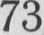73
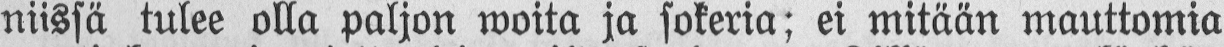niissä tulee olla paljon woita ja sokeria; ei mitään mauttomia
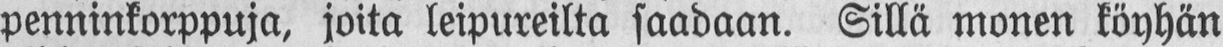penninkorppuja, joita leipureilta saadaan. Sillä monen köyhän
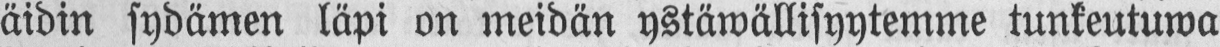äidin sydämen läpi on meidän ystäwällisyytemme tunkeutuwa
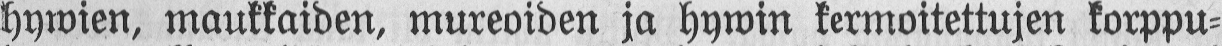hywien, maukkaiden, mureoiden ja hywin kermoitettujen korppu-
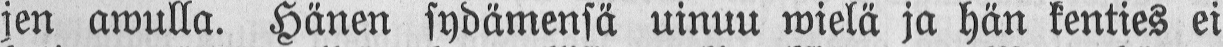jen awulla. Hänen sydämensä uinuu wielä ja hän kenties ei
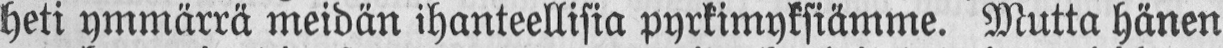heti ymmärrä meidän ihanteellisia pyrkimyksiämme. Mutta hänen
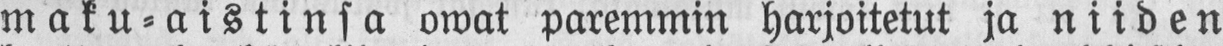maku-aistinsa owat paremmin harjoitetut ja niiden
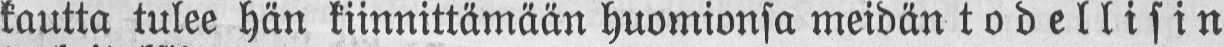kautta tulee hän kiinnittämään huomionsa meidän todellisin
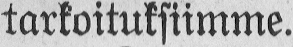tarkoituksiimme.
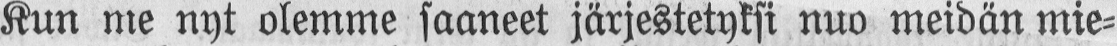Kun me nyt olemme saaneet järjestetyksi nuo meidän mie-
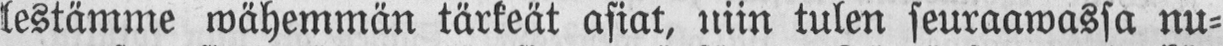lestämme wähemmän tärkeät asiat, niin tulen seuraawassa nu-
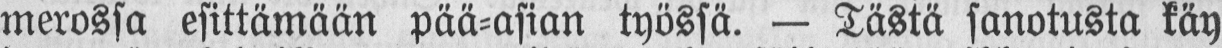merossa esittämään pää-asian työssä. — Tästä sanotusta käy
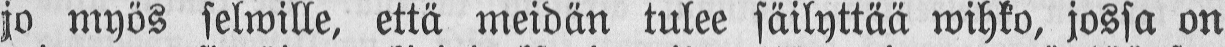jo myös selwille, että meidän tulee säilyttää wihko, jossa on
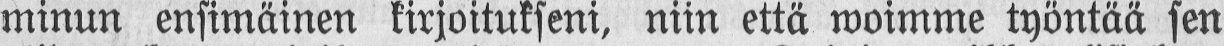minun ensimäinen kirjoitukseni, niin että woimme työntää sen
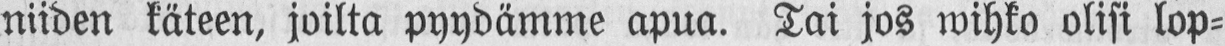niiden käteen, joilta pyydämme apua. Tai jos wihko olisi lop-
